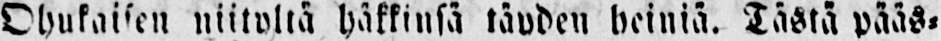Ohukaisen niityltä häkkinsä täyden heiniä. Tästä pääs-
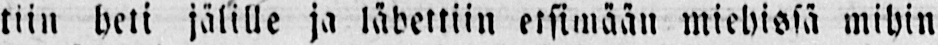tiin heti jälille ja lähettiin etsimään miehissä mihin
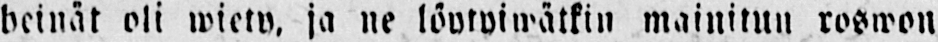heinät oli wiety, ja ne löytyiwätkin mainitun roswon
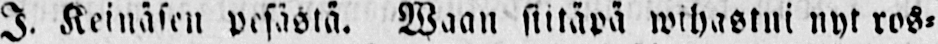I. Keinäsen pesästä. Waan siitäpä wihastui nyt ros-
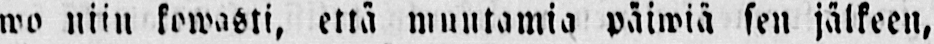wo kowasti, että muutamia päiwiä sen jälkeen,
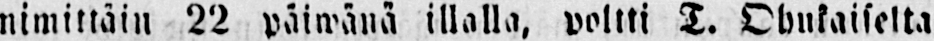nimittäin 22 päiwänä illalla, poltti T. Ohukaiselta
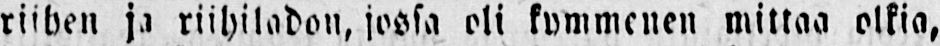riihen ja riihiladon, jossa oli kymmenen mittaa olkia,
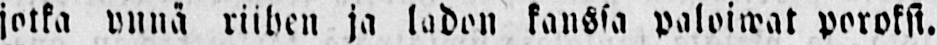jotka ynnä riihen ja ladon kanssa paloiwat poroksi.
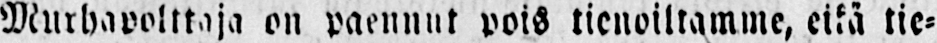Murhapolttaja on paennut pois tienoiltamme, eikä tie-
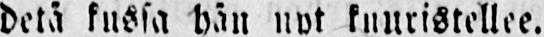detä kussa hän nyt kuuristellee.
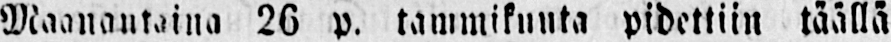Maanantaina 26 p. tammikuuta pidettiin täällä
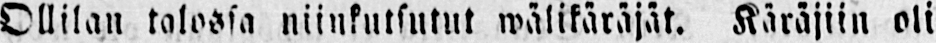Ollilan talossa niinkutsutut wälikäräjät. Käräjiin oli
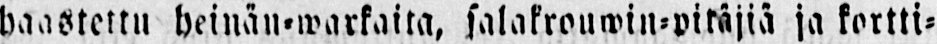haastettu heinän-warkaita, salakrouwin-pitäjiä ja kortti-
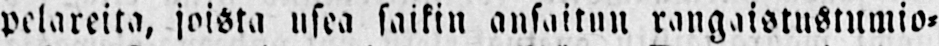pelareita, joista usea saikin ansaituu rangaistustumio-
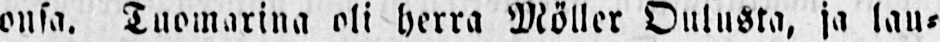onsa. Tuomarina oli herra Möller Oulusta, ja lau-
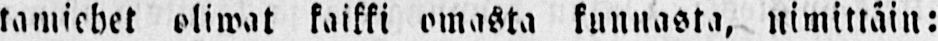tamiehet oliwat kaikki omasta kunnasta, nimittäin:
